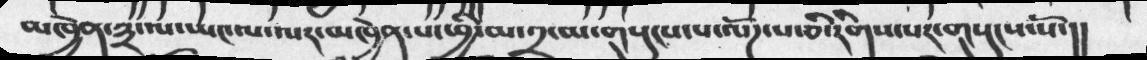མཁྱེན་༣་ལ་ཡང་ལ་ལར་མཁྱེན་པ་ཕྱི་མ་༢་ལ་གསུངས་པ་ལོཌ་པ་ཅི་རིགས་པར་གསུངས་སོ་།།
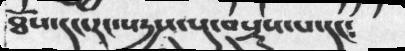ཐོས་དང་རང་སདྱས་སུ་བསྡུས་པ་དང༴
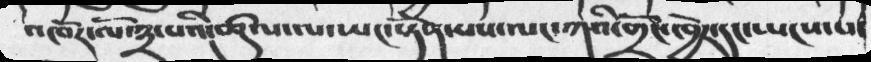འཁོར་ལོ་༣་པའི་ཚུལ་ལ་ཡང་སྟོན་པས་ལང་ཀའི་གྲོང་ཁྱེར་དང་ཡངས་པ་
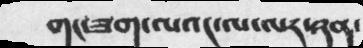གང་ཟག་ལའང་ལ་ལར་ཉན་
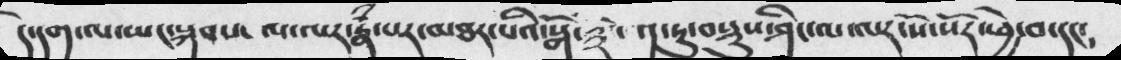དེ་དག་ལ་ཡང་སྐབས་ལ་ལར་རྣཾ་པར་མཐར་པའི་སྒོ་༣་༡་ཏུ་བསྡུས་ཤིང་ལ་ལར་སོ་སོར་ཕྱེ་བ་དང་
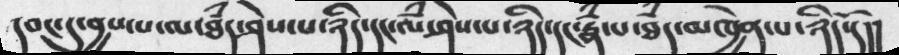དབང་དུ་བྱས་པ་ལ་ཐཾད་ཤེས་པ་ཉིད་དང་ལཾ་ཤེས་པ་ཉིད་དང་རྣཾ་པ་ཐཾད་མཁྱེན་པ་ཉིད་དོ།།
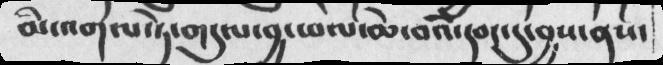མི་འགལ་ཏེ་གདུལ་བྱ་ཕལ་ཆེ་བའི་དབང་དུ་བྱས་ནས་
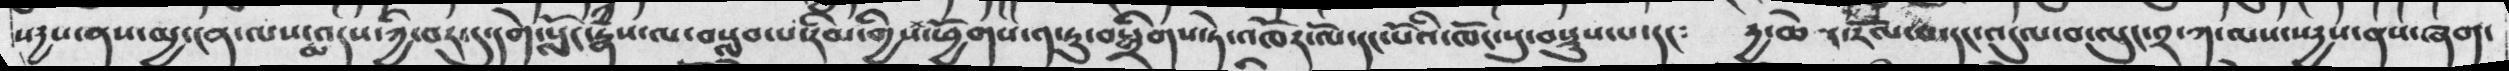སདྱས་ནས་མྱ་ངན་ལས་མ་འདས་ཀྱི་བར་དགེ་སློ་རྣཾས་ལ་བསླབ་པར་རིམ་གྱིས་ཕྱོགས་༡་ཏུ་བསྒྲིགས་ཏེ་འཁོར་དང་པོའི་ཁོང་སུ་བསྡུས་པ་དང༴  དྱ་ཆེར་རོལ་བ་དང་འདུལ་བ་ལུང་༢་ཀ་ལས་སདྱས་ནས་ཞག་
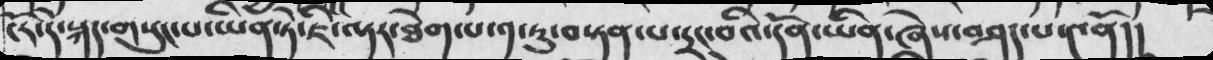ངོར་དེ་སྐད་གསུང་པ་ཡིན་ཏེ་ཇི་ལྟར་ཐེག་པ་༡་ཏུ་བསྟན་པ་དྲང་བའི་དོན་ཡིན་ཞེས་བཤད་པ་༤ནོ།།
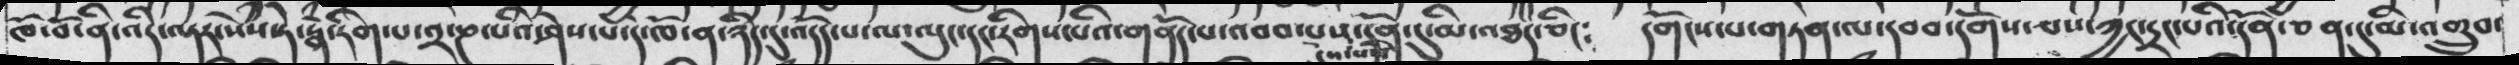ཁོ་བོ་ནི་འདི་ལྟར་སེཾས་ཏེ་རྣཾ་རིག་པ་༢་ཎ་པའི་ཤེས་པ་དེ་ཁོ་ན་ཉིད་དུ་འདོད་པ་ལ་ལུང་དང་རིགས་པའི་གནོན་པ་འབབ་པས་དོན་དུ་མི་འཐད་ཅིང༴  དགོངས་པ་གཏན་ལ་དབབ་དགོས་ཅས་ཀྱང་དྲང་པའི་དོན་ཅན་དུ་མི་འགྲུབ་
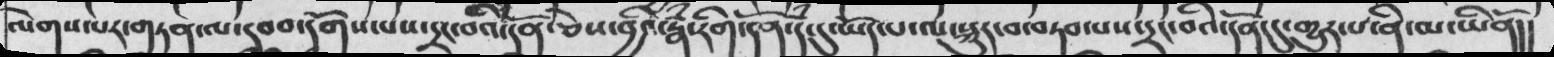ལེགས་པར་གཏན་ལ་དབབ་དགོས་པས་དྲང་བའི་དོན་ཅེས་བྱའི་རྣཾ་རིག་དོན་དཾ་དུ་ཡོད་པ་ལ་སྐུར་བ་བཏབ་པས་དྲང་བའི་དོན་དུ་གྱུར་པ་ནི་མ་ཡིནོ།།
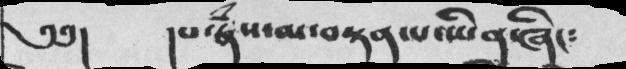༄༅།    །པ་རྣཾས་མ་བསྟན་པ་ཡིན་ཞིང༴
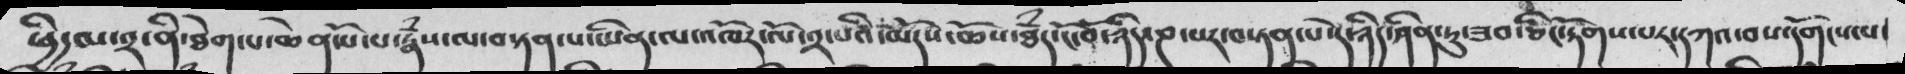ཕྱི་མ་༢་ནི་ཐེག་པ་ཆེན་པོ་པ་རྣཾས་ལ་བསྟན་པ་ཡིན་པ་འཁོར་ལོ་༢་པའི་མདོས་ཆོས་ཐཾད་ངོ་བོ་ཉིད་ཎ་པར་བསྟན་པ་དེ་ཉིད་ཤིན་ཏུ་ཟབ་ཅིང་རྟོགས་པར་དཀའ་བས་དགོངས་པ་
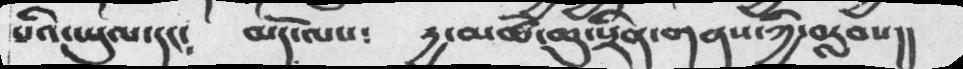པའི་ཡུལ་དང༴   མདོ་ལས༴  དྱ་མཚོ་ཆུ་སྲིན་གནས་ཀྱི་བརླབས།།
